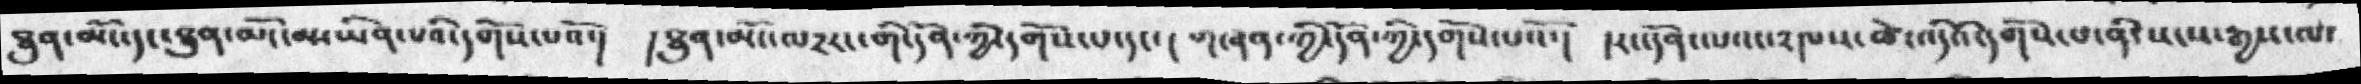ཐུན་མོང་དང་ཐུན་མོང་མ་ཡིན་པའི་དགོས་པའོ་།  །ཐུན་མོང་ལ༢རང་གི་དོན་ཀྱི་དགོས་པ་དང་། གཞན་ཀྱི་དོན་ཀྱི་དགོས་པའོ་།  རང་དོན་པའང་༢ལས་ཚེ་འངིའི་དགོས་པ་ནི་སངས་རྒྱས་ལ་
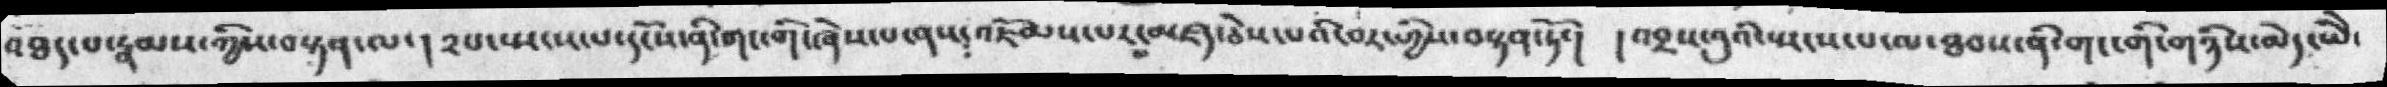འཐད་པ་རྣམས་ཀྱིས་བསྟན་ལ་། ༢པ་སྤངས་པ་དངོས་ནི་གང་གི་ཞེས་པ་ནས་འཇོམས་པར་མཛད་ཅེས་པའི་བར་གྱི་བསྟན་ཏོ་། །འབྲས་བུའི་སྤངས་པ་ལ་ཐབས་ནི་གང་གི་གཉིས་མེད་ཡཻ་
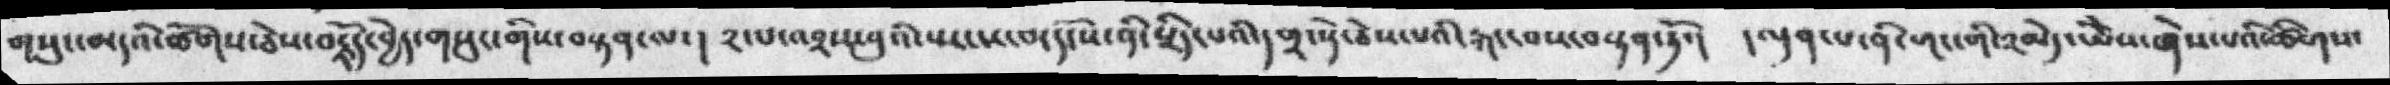གསུང་མདའི་ཚོགས་ཅེས་བརྗོད་བྱེད་གསུང་གིས་བསྟན་ལ་།  ༢་པ་འབྲས་བུའི་་སྤངས་པ་དངོས་ནི་སྲིད་པའི་དགྲ་སྟེ་ཅེས་པའི་རྐང་བས་བསྟན་ཏོ་།  །ལྡན་པ་ནི་གང་གི་༢མེད་ཡེེས་ཞེས་པའི་ཚིགས་
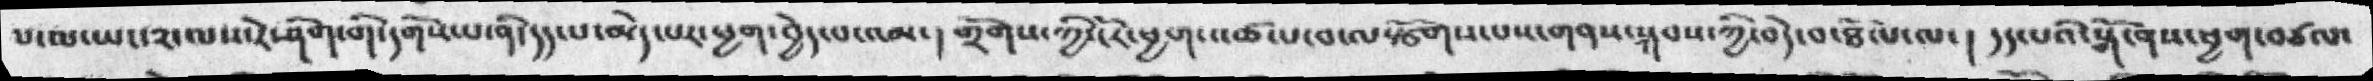པ་ལ་ཡང་༢ལས་རེ་ཤིག་གི་དགོས་པ་ནི་དད་པ་མེད་པར་ཕྱག་བྱེད་པ་འམ་ ། གྲོགས་ཀྱི་ངོར་ཕྱག་འཚལ་བ་ལསྩོགས་པས་གནས་སྐབས་ཀྱི་བདེ་བ་ཐོལ་ལ་། དད་པའི་སྒོ་ནས་ཕྱག་བཙལ་
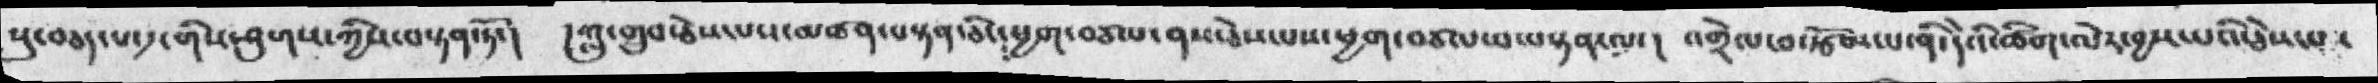སུ་ཅཅད་པ་༡་གིས་ཤུགས་ཀྱིས་བསྟན་ཏོ་།  །ཀླུ་གྲུབ་ཅེས་པས་མཚན་བསྟན་ཅིང་ཕྱག་བཅལ་ནས་ཅེས་པས་ཕྱག་བཙལ་བ་བསྟན་ལ་། འགྲེལ་བ་རྩོམ་པ་ནི་དེའི་ཚིག་ལེར་བྱས་པའི་ཅེས་པ་
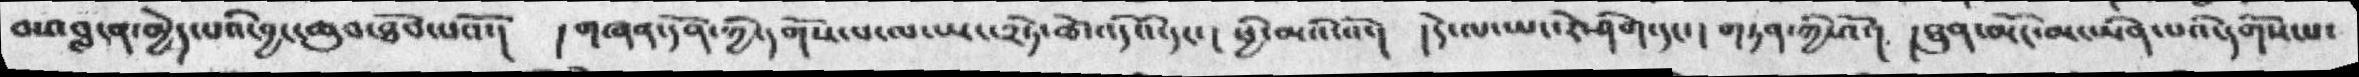བས་བླ་ན་མྱེད་པའི་བྱང་ཆུབ་ཐོབ་པའོ་།  ། གཞན་དོན་གྱི་དགོས་པ་ལ་ཡང་༢ཏེ་ཚེ་འདིའི་དང་། ཕྱི་མའི་འོ་།  །དེ་ལ་ཡང་རེ་ཤིག་དང་། གཏན་ཀྱི་འོ་།  །ཐུན་མོང་མ་ཡིན་པའི་དགོས་པ་
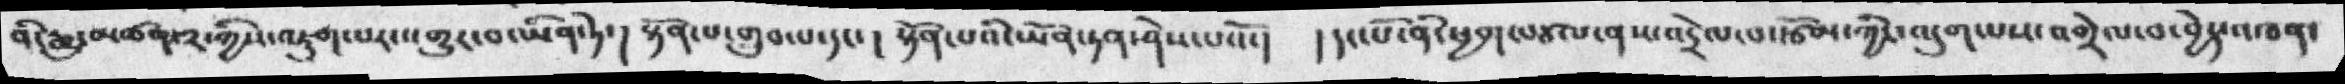ནི་རྒྱུ་མཚན་༢་གྱིས་འཇུག་པར་འགྱུར་བ་ཡིན་ཏེ་།  སྟོན་པ་གྲུབ་པ་དང་ ། སྟོན་པའི་ཡོན་ཏན་ཤེས་པའོ་། །དང་པོ་ནི་ཕྱག་བཙལ་ནས་འདྲེལ་བ་རྩོམ་ཀྱིང་འདུག་པས་འགྲེལ་བ་བྱེད་འཁན་
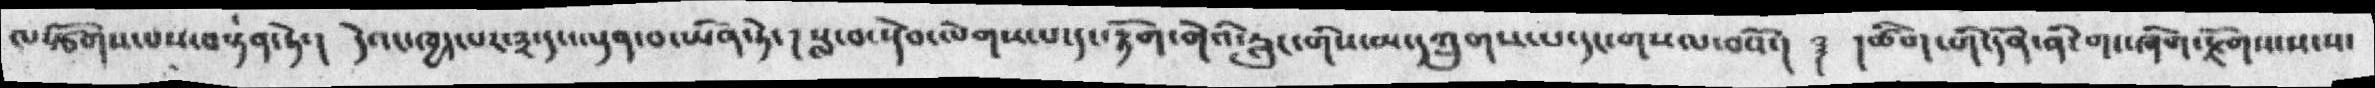ཁསྩོགས་པས་བསྟན་ཏེ་།  དེའང་ཁྱད་པར་༣་དང་ལྡན་བ་ཡིན་ཏེ་། སླ་བ་སྡེབ་ལེགས་པ་དང་རྟོག་གེའི་རླུང་གིས་མ་དཀྲུགས་པ་དང་གསལ་བའོ་། ࿑ །ཚིག་གི་དོན་ནི་གང་ཞིག་རྗོགས་སངས་
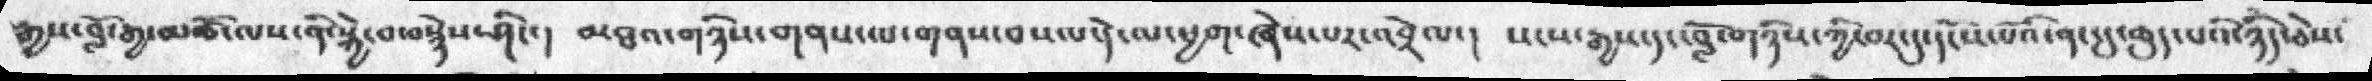རྒྱས་བློ་རྒྱ་མཚོ་ལས་ནི་སྐྱེ་བ་བསྙེས་ཤིང་།  མཐའ་གཉིས་གནས་ལ་གནས་བསལ་དེ་ལ་ཕྱག་ཞེས་པར་འབྲེལ་།  སངས་རྒྱས་དང་བློ་གཉིས་ཀྱི་བར་དུ་དངོས་པོའི་ནང་དུ་ཆུད་པའི་ཉིད་ཅེས་
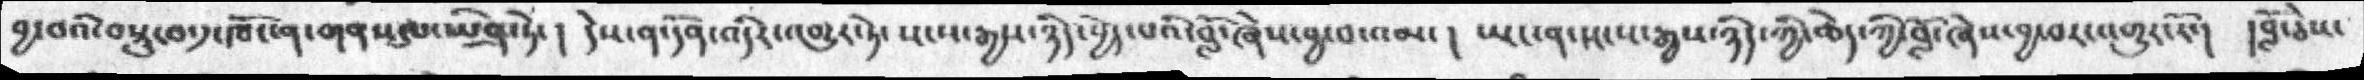བྱ་བའི་བསྡུ་བ་༡་ཁོ་ན་གནས་པ་ཡིན་ཏེ་།  དེས་ན་དོན་འདིར་འགྱུར་ཏེ་སངས་རྒྱས་ཉིད་བྱེད་པའི་བློ་ཞེས་བྱ་བ་འམ་།  ཡང་ན་སངས་རྒྱས་ཉིད་ཀྱི་ཆེད་ཀྱི་བློ་ཞེས་བྱ་བར་འགྱུར་རོ་།  བློ་ཅེས་
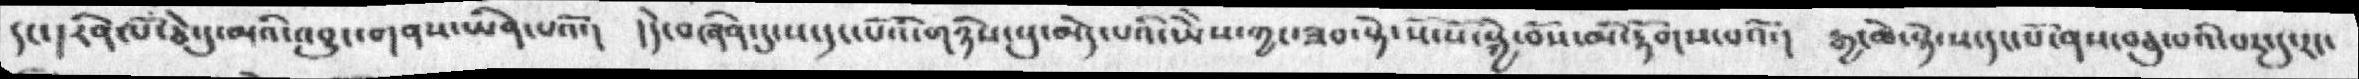དང་།རིན་པོ་ཅེ་དུ་མའི་འབྱུང་གནས་ཡིན་པའོ་།  །དེ་བཞིན་དུ་ས་དང་པོའི་གཉིས་སུ་མེད་པའི་ཡེེས་ཀྱང་ཟབ་སྟེ་སོ་སོ་སྐྱེ་བོས་མི་རྟོགས་པའི་། རྒྱ་ཆེ་སྟེ་ས་དང་པོ་ནས་བཅུ་པའི་བར་དུ་རང་
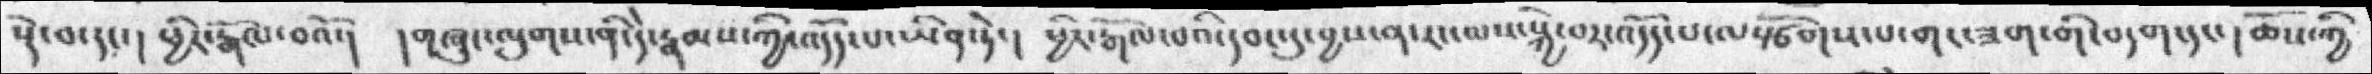སྡེ་བ་དང་། ཕྱིར་རྒོལ་བའོ་།  །གཞུང་ལུགས་ནི་དེ་རྣམས་ཀྱི་འདོད་པ་ཡིན་ཏེ་།  ཕྱིར་རྒོལ་བའི་དབང་དུ་བྱས་ན་རང་ལས་སྐྱེ་བར་འདོད་པ་ལསྩོགས་པ་གང་ཟག་གི་བདག་དང་། ཆོས་ཀྱི་
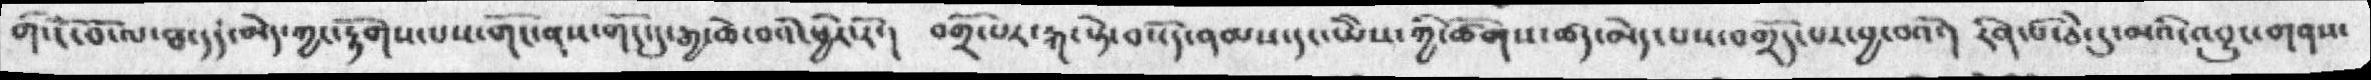གི་ངོ་བོ་ལ་ཐ་དད་མེད་ཀྱང་རྟོགས་པས་གོང་ནས་གོང་དུ་རྒྱ་ཆེ་བའི་ཕྱིར་རོ་།  བགྲོ་པར་རྐ་སྟེ་བསོད་ནམས་དང་ཡེེས་ཀྱི་ཚོགས་ཚད་མེད་པས་བགྲོད་པར་བྱ་བའོ་།  རིན་པོ་ཅེ་དུ་མའི་འབྱུང་གནས་
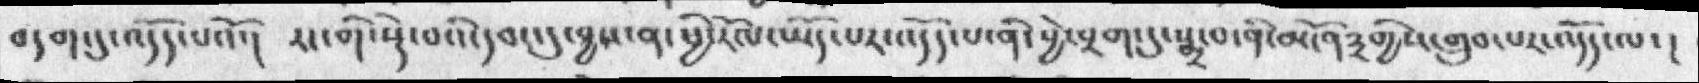བདག་དུ་འདོད་པའོ་།   རང་གི་སྡེ་བའི་དབང་དུ་བྱས་ན་ཕྱི་རོ་ལ་ཡོད་པར་འདོད་པ་ནི་བྱེ་བྲག་དུ་སྨྲ་བ་ནི་མངོན་༣གྱིས་གྲུབ་པར་འདོད་ལ་།
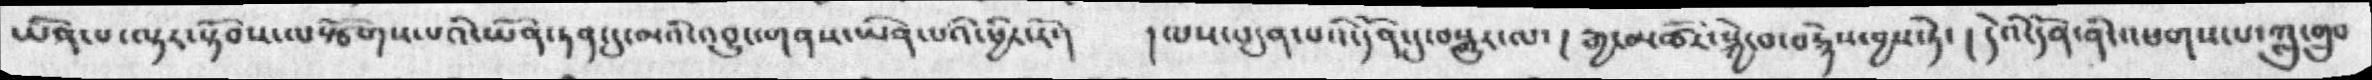ཡིན་པ་ལྟར་སྟོབས་ལསྩོགས་པའི་ཡོན་ཏན་དུ་མའི་འབྱུང་གནས་ཡིན་པའི་ཕྱིར་རོ་།  ། ལས་བདུན་པའི་དོན་དུ་བསྒྱུར་ལ་། རྒྱ་མཚོར་སྐྱེ་བ་བརྙེས་བྱས་ཏེ་། དེའི་དོན་ནི་འཕགས་པ་ཀླུ་གྲུབ་
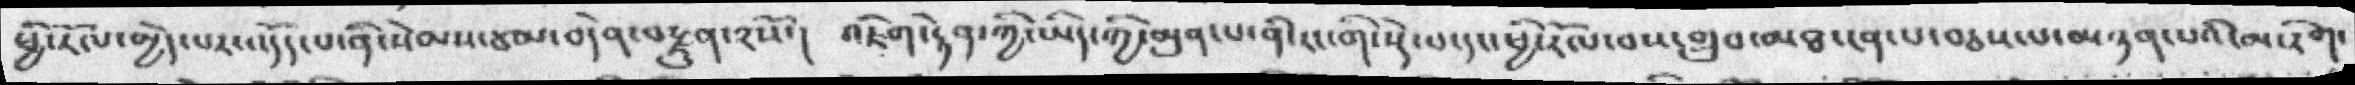ཕྱི་རོལ་མྱེད་པར་འདོད་པ་ནི་སེམས་ཙམ་བདེན་བརྗུན་༢སོ་།  འཇིག་རྟེན་ཀྱི་ཡིད་གྱི་མུན་པ་ནི་རང་གི་སྡེ་པ་དང་ཕྱི་རོལ་བས་གྲུབ་མཐ་ངན་པ་བཅལ་པ་མཉན་པའི་མ་རིག་
